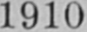1910
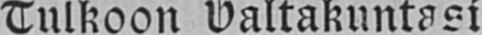Tulkoon Valtakuntasi
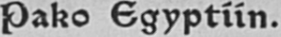Pako Egyptiin.
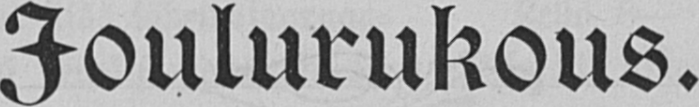Joulurukous.
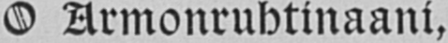O Armonruhtinaani,
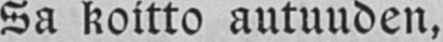Sa koitto autuuden,
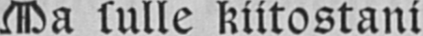Ma sulle kiitostani
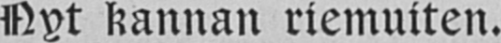Nyt kannan riemuiten.
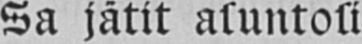Sa jätit asuntosi
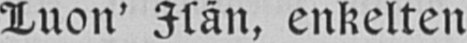Luon' Isän, enkelten
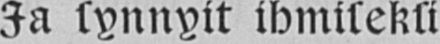Ja synnyit ihmiseksi
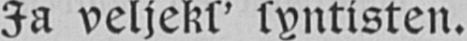Ja veljeks' syntisten.
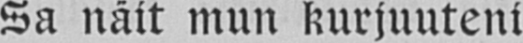Sa näit mun kurjuuteni
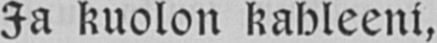Ja kuolon kahleeni,
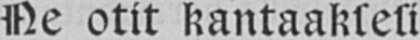Ne otit kantaaksesi
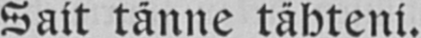Sait tänne tähteni.
